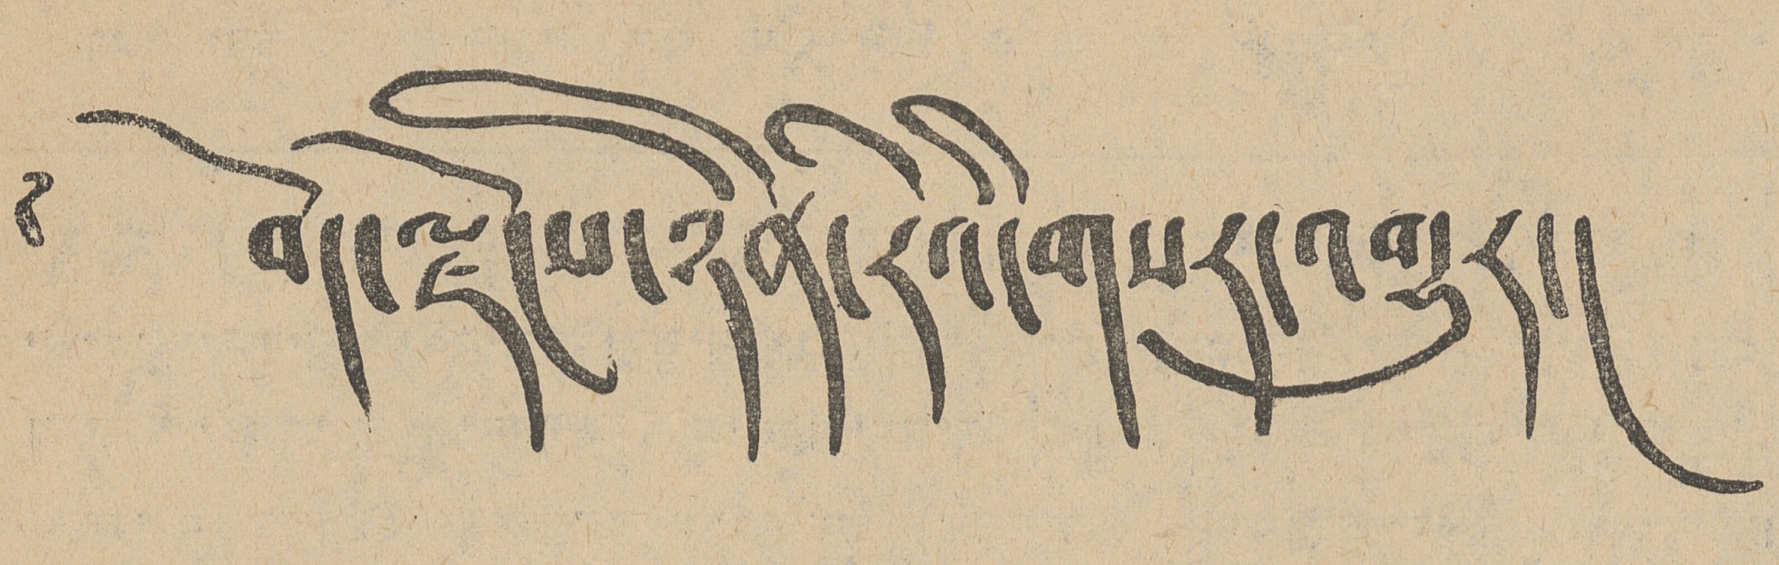༄ བོད་ལྗོངས་ཉིན་རེའི་གསར་འགྱུར།
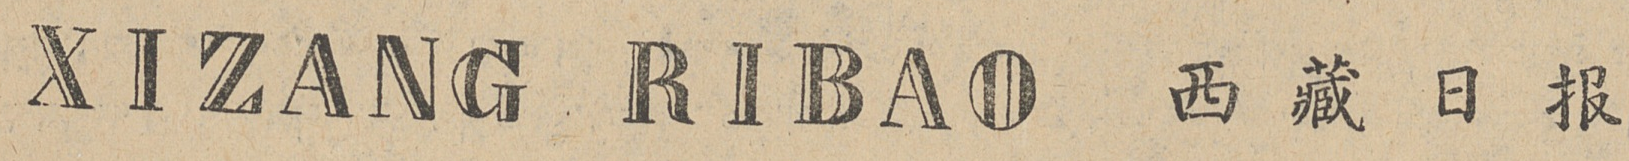XIZANG RIBAO 西 藏 日 报
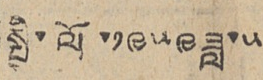སྤྱི་ལོ་༡༩༥༩ཟླ་༥
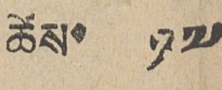ཚེས་ ༡༧
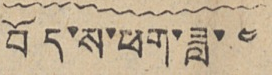བོད་ས་ཕག་ཟླ་༤
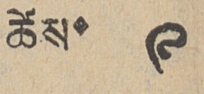ཚེས་ ༩
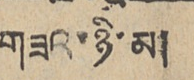གཟའ་ཉི་མ།
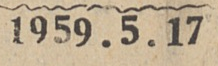1959.5.17
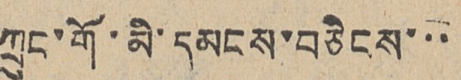ཀྲུང་གོ་མི་དམངས་བཅིངས་་་
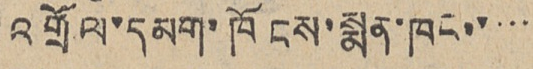འགྲོལ་དམག་ཁོངས་སྨན་ཁང་་་་་
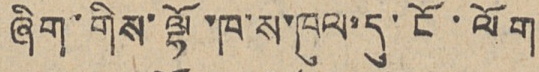ཞིག་གིས་ལྷོ་ཁ་ས་ཁུལ་དུ་ངོ་ལོག
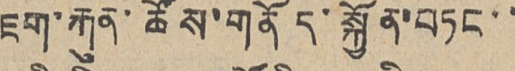ཇག་རྐུན་ཚོས་གནོད་སྐྱོན་བཏང་་
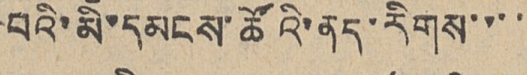བའི་མི་དམངས་ཚོའི་ནད་རིགས་་་་
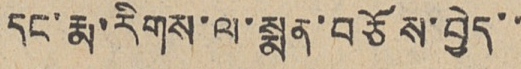དང་རྨ་རིགས་ལ་སྨན་བཅོས་བྱེད་་
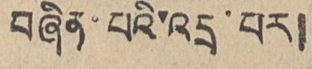བཞིན་པའི་འདྲ་པར།
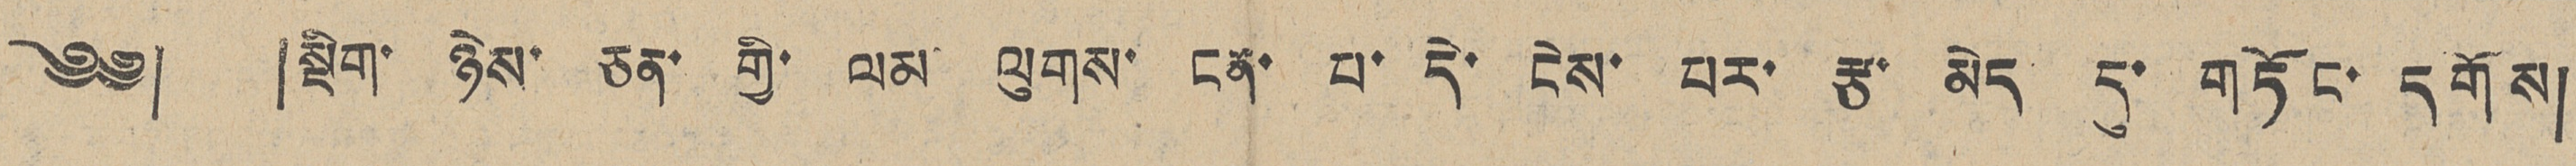༄༅། །སྡིག་ ཉེས་ ཅན་ གྱི་ ལམ ལུགས་ ངན་ པ་ དེ་ ངེས་ པར་ རྩ་ མེད དུ་ གཏོང་ དགོས།
